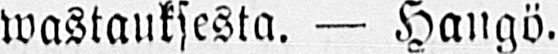wastauksesta. — Hangö.
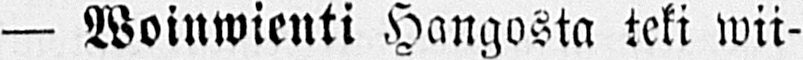— Woinwienti Hangosta teki wii-
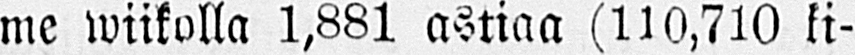me wiikolla 1,881 astiaa (Il0,710 ki-
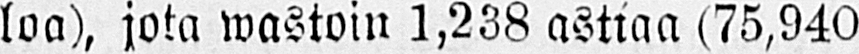loa), jota wastoin 1,238 astiaa (75,940
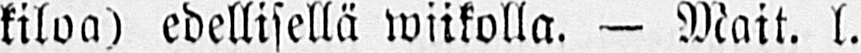kiloa) edellisellä wiikolla. — Mait. l.
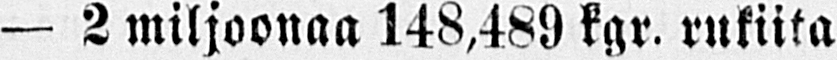— 2 miljoonaa 148,489 kgr. rukiita
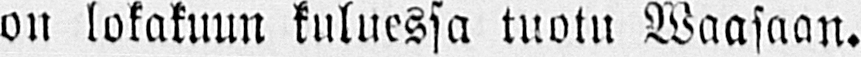on lokakuun kuluessa tuotu Waasaan.
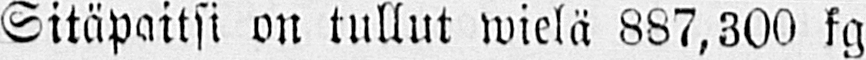Sitäpaitsi on tullut wielä 887,300 kg
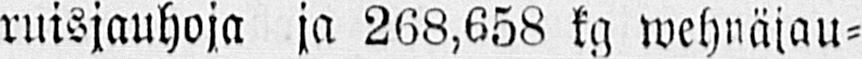ruisjauhoja ja 268,658 kg wehnäjau-
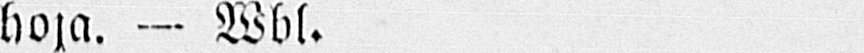hoja. — Wbl.
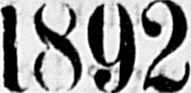1892
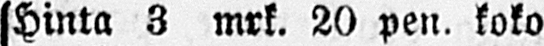Hinta 3 mrk. 20 pen. koko
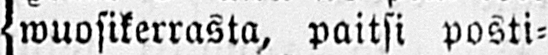wuosikerrasta, paitsi posti-
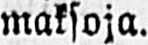maksoja.
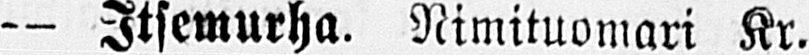— Itsemurha. Nimituomari Kr.
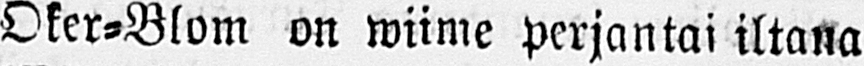Oker-Blom on wiime perjantai iltana
